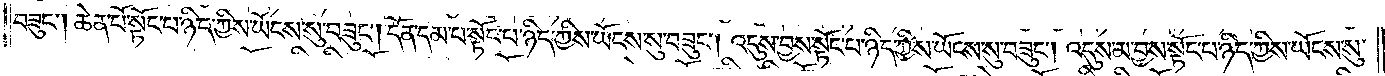བཟུང༌། ཆེན་པོ་སྟོང་པ་ཉིད་ཀྱིས་ཡོངས་སུ་བཟུང༌། དོན་དམ་པ་སྟོང་པ་ཉིད་ཀྱིས་ཡོངས་སུ་བཟུང༌། འདུས་བྱས་སྟོང་པ་ཉིད་ཀྱིས་ཡོངས་སུ་བཟུང༌། འདུས་མ་བྱས་སྟོང་པ་ཉིད་ཀྱིས་ཡོངས་སུ་
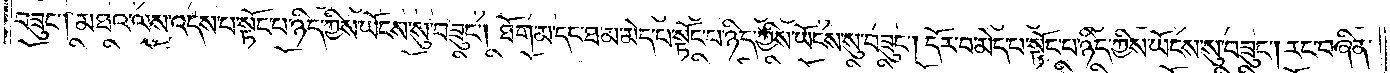བཟུང༌། མཐའ་ལས་འདས་པ་སྟོང་པ་ཉིད་ཀྱིས་ཡོངས་སུ་བཟུང༌། ཐོག་མ་དང་ཐ་མ་མེད་པ་སྟོང་པ་ཉིད་ཀྱིས་ཡོངས་སུ་བཟུང༌། དོར་བ་མེད་པ་སྟོང་པ་ཉིད་ཀྱིས་ཡོངས་སུ་བཟུང༌། རང་བཞིན་
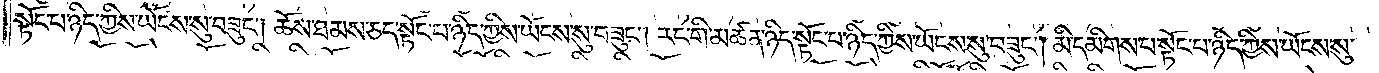སྟོང་པ་ཉིད་ཀྱིས་ཡོངས་སུ་བཟུང༌། ཆོས་ཐམས་ཅད་སྟོང་པ་ཉིད་ཀྱིས་ཡོངས་སུ་བཟུང༌། རང་གི་མཚན་ཉིད་སྟོང་པ་ཉིད་ཀྱིས་ཡོངས་སུ་བཟུང༌། མི་དམིགས་པ་སྟོང་པ་ཉིད་ཀྱིས་ཡོངས་སུ་
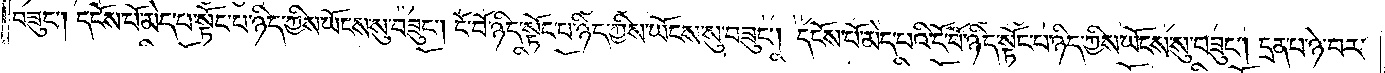བཟུང༌། དངོས་པོ་མེད་པ་སྟོང་པ་ཉིད་ཀྱིས་ཡོངས་སུ་བཟུང༌། ངོ་བོ་ཉིད་སྟོང་པ་ཉིད་ཀྱིས་ཡོངས་སུ་བཟུང༌། དངོས་པོ་མེད་པའི་ངོ་བོ་ཉིད་སྟོང་པ་ཉིད་ཀྱིས་ཡོངས་སུ་བཟུང༌། དྲན་པ་ཉེ་བར་
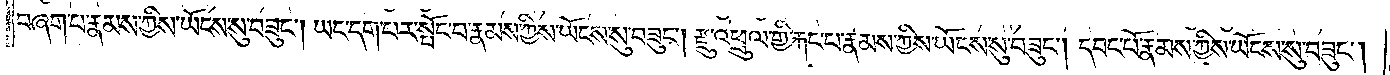བཞག་པ་རྣམས་ཀྱིས་ཡོངས་སུ་བཟུང༌། ཡང་དག་པར་སྤོང་བ་རྣམས་ཀྱིས་ཡོངས་སུ་བཟུང༌། རྫུ་འཕྲུལ་གྱི་རྐང་པ་རྣམས་ཀྱིས་ཡོངས་སུ་བཟུང༌། དབང་པོ་རྣམས་ཀྱིས་ཡོངས་སུ་བཟུང༌།
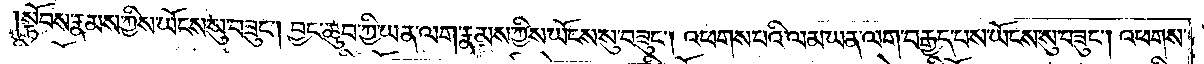སྟོབས་རྣམས་ཀྱིས་ཡོངས་སུ་བཟུང༌། བྱང་ཆུབ་ཀྱི་ཡན་ལག་རྣམས་ཀྱིས་ཡོངས་སུ་བཟུང༌། འཕགས་པའི་ལམ་ཡན་ལག་བརྒྱད་པས་ཡོངས་སུ་བཟུང༌། འཕགས་
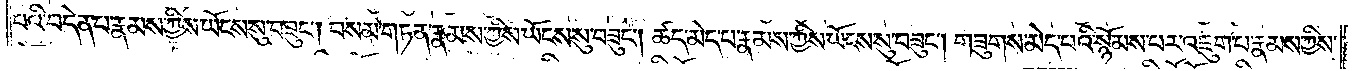པའི་བདེན་པ་རྣམས་ཀྱིས་ཡོངས་སུ་བཟུང༌། བསམ་གཏན་རྣམས་ཀྱིས་ཡོངས་སུ་བཟུང༌། ཚད་མེད་པ་རྣམས་ཀྱིས་ཡོངས་སུ་བཟུང༌། གཟུགས་མེད་པའི་སྙོམས་པར་འཇུག་པ་རྣམས་ཀྱིས་
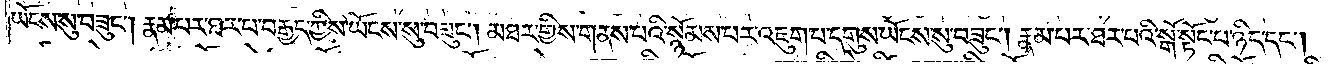ཡོངས་སུ་བཟུང༌། རྣམ་པར་ཐར་པ་བརྒྱད་ཀྱིས་ཡོངས་སུ་བཟུང༌། མཐར་གྱིས་གནས་པའི་སྙོམས་པར་འཇུག་པ་དགུས་ཡོངས་སུ་བཟུང༌། རྣམ་པར་ཐར་པའི་སྒོ་སྟོང་པ་ཉིད་དང༌།
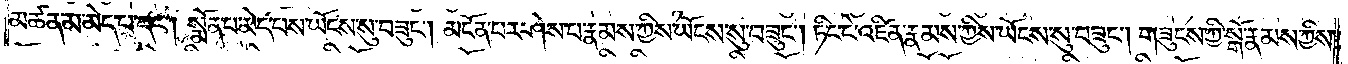མཚན་མ་མེད་པ་དང༌། སྨོན་པ་མེད་པས་ཡོངས་སུ་བཟུང༌། མངོན་པར་ཤེས་པ་རྣམས་ཀྱིས་ཡོངས་སུ་བཟུང༌། ཏིང་ངེ་འཛིན་རྣམས་ཀྱིས་ཡོངས་སུ་བཟུང༌། གཟུངས་ཀྱི་སྒོ་རྣམས་ཀྱིས་
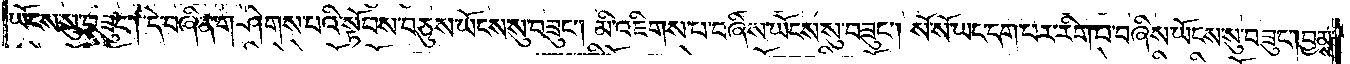ཡོངས་སུ་བཟུང༌། དེ་བཞིན་གཤེགས་པའི་སྟོབས་བཅུས་ཡོངས་སུ་བཟུང༌། མི་འཇིགས་པ་བཞིས་ཡོངས་སུ་བཟུང༌། སོ་སོ་ཡང་དག་པར་རིག་པ་བཞིས་ཡོངས་སུ་བཟུང༌། བྱམས་
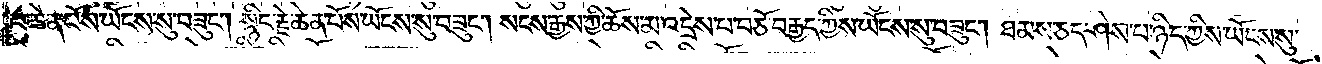པ་ཆེན་པོས་ཡོངས་སུ་བཟུང༌། སྙིང་རྗེ་ཆེན་པོས་ཡོངས་སུ་བཟུང༌། སངས་རྒྱས་ཀྱི་ཆོས་མ་འདྲེས་པ་བཅོ་བརྒྱད་ཀྱིས་ཡོངས་སུ་བཟུང༌། ཐམས་ཅད་ཤེས་པ་ཉིད་ཀྱིས་ཡོངས་སུ་
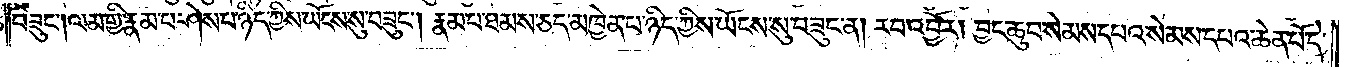བཟུང༌། ལམ་གྱི་རྣམ་པ་ཤེས་པ་ཉིད་ཀྱིས་ཡོངས་སུ་བཟུང༌། རྣམ་པ་ཐམས་ཅད་མཁྱེན་པ་ཉིད་ཀྱིས་ཡོངས་སུ་བཟུང་ན། རབ་འབྱོར། བྱང་ཆུབ་སེམས་དཔའ་སེམས་དཔའ་ཆེན་པོ་དེ་
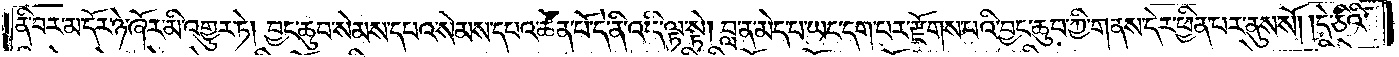ནི་བར་མ་དོར་ཉེ་ཞོར་མི་འགྱུར་ཏེ། བྱང་ཆུབ་སེམས་དཔའ་སེམས་དཔའ་ཆེན་པོ་དེ་ནི་འདི་ལྟ་སྟེ། བླ་ན་མེད་པ་ཡང་དག་པར་རྫོགས་པའི་བྱང་ཆུབ་གྱི་གནས་དེར་ཕྱིན་པར་ནུས་སོ། །དེ་ཅིའི་
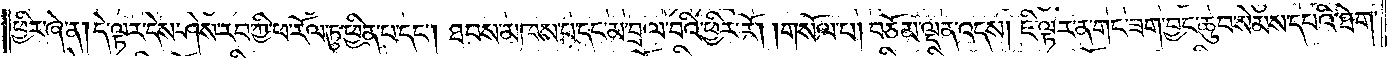ཕྱིར་ཞེ་ན། དེ་ལྟར་དེས་ཤེས་རབ་ཀྱི་ཕ་རོལ་ཏུ་ཕྱིན་པ་དང༌། ཐབས་མཁས་པ་དང་མ་བྲལ་བའི་ཕྱིར་རོ། །གསོལ་པ། བཅོམ་ལྡན་འདས། ཇི་ལྟར་ན་གང་ཟག་བྱང་ཆུབ་སེམས་དཔའི་ཐེག་
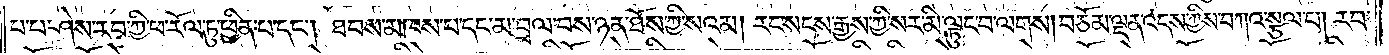པ་པ་ཤེས་རབ་ཀྱི་ཕ་རོལ་ཏུ་ཕྱིན་པ་དང༌། ཐབས་མཁས་པ་དང་མ་བྲལ་བས་ཉན་ཐོས་ཀྱི་སའམ། རང་སངས་རྒྱས་ཀྱི་སར་མི་ལྟུང་བ་ལགས། བཅོམ་ལྡན་འདས་ཀྱིས་བཀའ་སྩལ་པ། རབ་
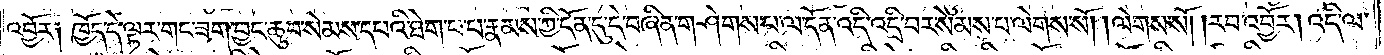འབྱོར། ཁྱོད་དེ་ལྟར་གང་ཟག་བྱང་ཆུབ་སེམས་དཔའི་ཐེག་པ་བ་རྣམས་ཀྱི་དོན་དུ་དེ་བཞིན་གཤེགས་པ་ལ་དོན་འདི་འདྲི་བར་སེམས་པ་ལེགས་སོ། །ལེགས་སོ། །རབ་འབྱོར། འདི་ལ་
